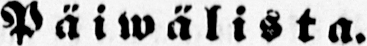Päiwälista.
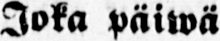Joka päiwä
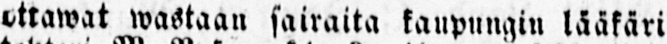ottawat wastaan sairaita kaupungin lääkäri
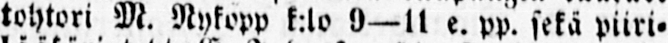tohtori M. Nykopp k:lo 9—ll e. pp. sekä piiri-
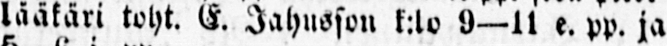lääkäri toht. E. Jahusson k:lo 9—1l e. pp. ja
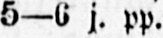5—6 j. pp.
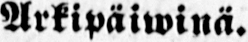Arkipäiwina.
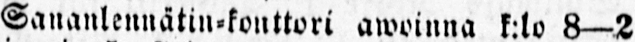Sananlennätin- awoinna k:lo 8—2
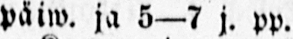päiw. ja 5—7 j. pp.
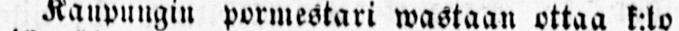Kaupungin pormestari wastaan ottaa k:lo
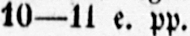10—ll e. pp.
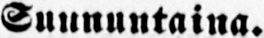Suununtaina.
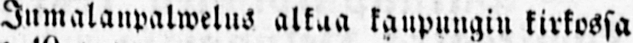Jumalanpalwelus alkaa kaupungin kirkossa
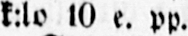k:lo 10 e. pp.
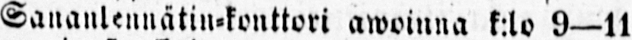Sananlennätin-konttorl awoinna k:lo 9—l1
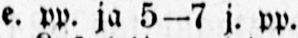e. pp. ja 5-7 j. pp.
